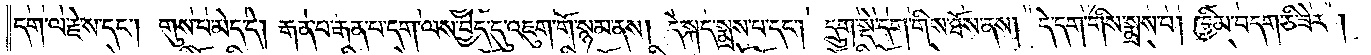དག་ལ་རྗེས་དང༌། གུས་པ་མེད་དེ། རྒན་པ་རྒན་པ་དག་ལས་བྱེད་དུ་འཇུག་གོ་སྙམ་ནས། དེ་སྐད་སྨྲས་པ་དང༌། དྲུག་སྡེ་དག་གིས་ཐོས་ནས། དེ་དག་གིས་སྨྲས་པ། ཁྱིམ་བདག་ཅི་ཟེར།
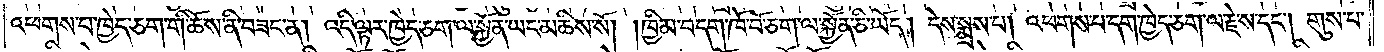འཕགས་པ་ཁྱེད་ཅག་གི་ཆོས་ནི་བཟང་ན། འདི་ལྟར་ཁྱེད་ཅག་ལ་སྐྱོན་ཡང་མཆིས་སོ། །ཁྱིམ་བདག་ཁོ་བོ་ཅག་ལ་སྐྱོན་ཅི་ཡོད། དེས་སྨྲས་པ། འཕགས་པ་དག་ཁྱེད་ཅག་ལ་རྗེ་ས་དང༌། གུས་པ་
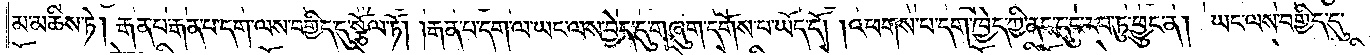མ་མཆིས་ཏེ། རྒན་པ་རྒན་པ་དག་ལས་བགྱིད་དུ་སྩོལ་ཏོ། །རྒན་པ་དག་ལ་ཡང་ལས་བྱེད་དུ་གཞུག་དགོས་པ་ཡོད་དོ། །འཕགས་པ་དག་ཁྱེད་ཀྱི་ནང་དུ་ང་རབ་ཏུ་ཕྱུང་ན། ཡང་ལས་བགྱིད་དུ་
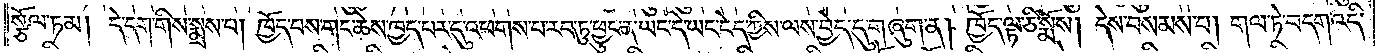སྩོལ་ཏམ། དེ་དག་གིས་སྨྲས་པ། ཁྱོད་བས་གང་ཆེས་ཁྱད་པར་དུ་འཕགས་པ་རབ་ཏུ་ཕྱུང་ན་ཡང་དེ་ཡང་ངེད་ཀྱིས་ལས་བྱེད་དུ་གཞུག་ན། ཁྱོད་ལྟ་ཅི་སྨོས། དེས་བསམས་པ། གལ་ཏེ་བདག་འདི་
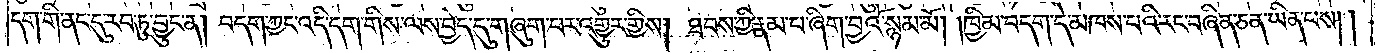དག་གི་ནང་དུ་རབ་ཏུ་བྱུང་ན། བདག་ཀྱང་འདི་དག་གིས་ལས་བྱེད་དུ་གཞུག་པར་འགྱུར་གྱིས། ཐབས་ཀྱི་རྣམ་པ་ཞིག་བྱའོ་སྙམ་མོ། །ཁྱིམ་བདག་དེ་མཁས་པའི་རང་བཞིན་ཅན་ཡིན་པས། །
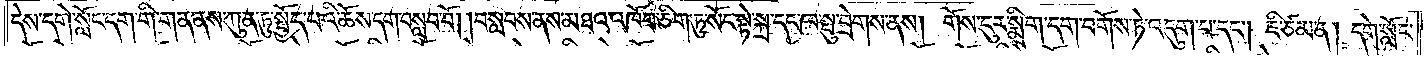དེས་དགེ་སློང་དག་གི་གན་ནས་ཀུན་ཏུ་སྤྱོད་པའི་ཆོས་དག་བསླབ་བོ། །བསླབས་ནས་མཐའ་འཁོབ་ཅིག་ཏུ་སོང་སྟེ་སྐྲ་དང་ཁ་སྤུ་བྲེགས་ནས། གོས་ངུར་སྨྲིག་དག་བགོས་ཏེ་འདུག་པ་དང༌། ཇི་ཙམ་ན། དགེ་སློང་
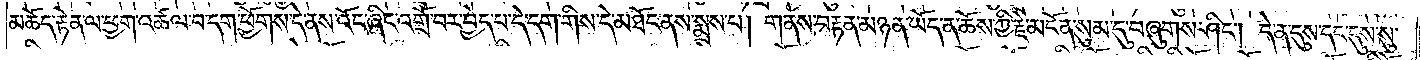མཆོད་རྟེན་ལ་ཕྱག་འཚལ་བ་དག་ཕྱོགས་དེ་ནས་འོང་ཞིང་འགྲོ་བར་བྱེད་པ་དེ་དག་གིས་དེ་མཐོང་ནས་སྨྲས་པ། གནས་བརྟན་མཉན་ཡོད་ན་ཆོས་ཀྱི་རྗེ་མངོན་སུམ་དུ་བཞུགས་ཤིང༌། དེ་ན་དུས་དང་དུས་སུ་
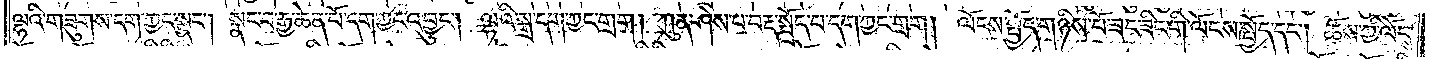ལྷའི་གཟུགས་དག་ཀྱང་སྣང༌། སྣང་བ་རྒྱ་ཆེན་པོ་དག་ཀྱང་འབྱུང༌། ལྷའི་སྒྲ་དག་ཀྱང་གྲག། ཀུན་ཤེས་པ་བརྡ་སྤྲོད་པ་དག་ཀྱང་གྲག། ལོངས་སྤྱོད་གཉིས་པོ་ཟང་ཟིང་གི་ལོངས་སྤྱོད་དང༌། ཆོས་ཀྱི་ལོངས་
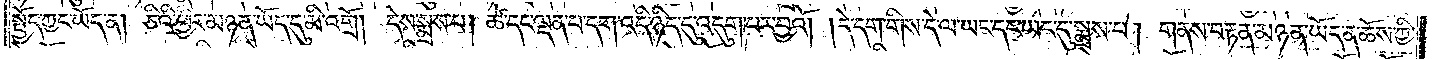སྤྱོད་ཀྱང་ཡོད་ན། ཅིའི་ཕྱིར་མཉན་ཡོད་དུ་མི་འགྲོ། དེས་སྨྲས་པ། ཚེ་དང་ལྡན་པ་དག་འདི་ཉིད་དུ་འདུག་པར་བྱའོ། །དེ་དག་གིས་དེ་ལ་ཡང་དང་ཡང་དུ་སྨྲས་པ། གནས་བརྟན་མཉན་ཡོད་ན་ཆོས་ཀྱི་
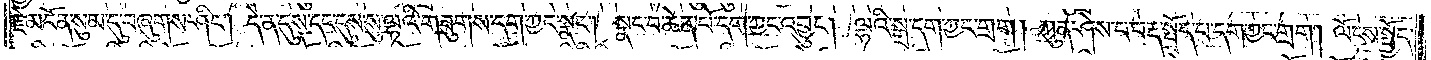རྗེ་མངོན་སུམ་དུ་བཞུགས་ཤིང༌། དེ་ན་དུས་དང་དུས་སུ་ལྷའི་གཟུགས་དག་ཀྱང་སྣང༌། སྣང་བ་ཆེན་པོ་དག་ཀྱང་འབྱུང༌། ལྷའི་སྒྲ་དག་ཀྱང་གྲག། ཀུན་ཤེས་པ་བརྡ་སྤྲོད་པ་དག་ཀྱང་གྲག། ལོངས་སྤྱོད་
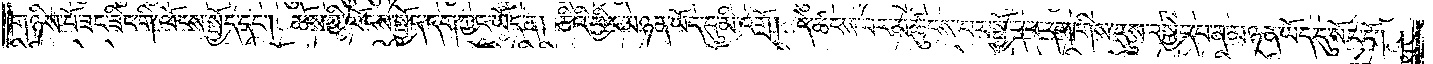གཉིས་པོ་ཟང་ཟིང་གི་ལོངས་སྤྱོད་དང༌། ཆོས་ཀྱི་ལོངས་སྤྱོད་དག་ཀྱང་ཡོད་ན། ཅིའི་ཕྱིར་མཉན་ཡོད་དུ་མི་འགྲོ། དེ་ཚངས་པར་མཚུངས་པར་སྤྱོད་པ་དག་གིས་དུས་བསྐྱེད་པ་ན་མཉན་ཡོད་དུ་སོང་ངོ༌། །
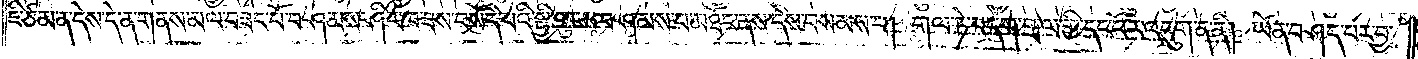ཇི་ཙམ་ན་དེས་དེ་ན་གནས་མལ་བཟང་པོ་བཤམས་ཤིང་ཁ་ཟས་བསོད་པའི་སྤྱི་བུངས་བཤམས་པ་མཐོང་ནས་དེས་བསམས་པ། གལ་ཏེ་བདག་གྲལ་གྱི་དང་པོར་འདུག་ན་ནི༑ ཡོན་བཤད་པར་བྱ་
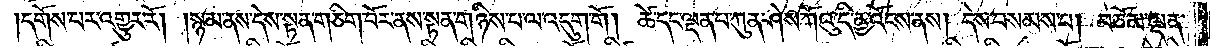དགོས་པར་འགྱུར་རོ། །སྙམ་ནས་དེས་སྟན་གཅིག་བོར་ནས་སྟན་གཉིས་པ་ལ་འདུག་གོ། ཚེ་དང་ལྡན་པ་ཀུན་ཤེས་ཀོའུ་དི་ནྱ་འོངས་ནས། དེས་བསམས་པ། བཅོམ་ལྡན་
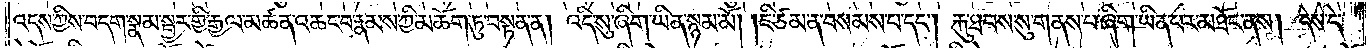འདས་ཀྱིས་བདག་སྣམ་སྦྱར་གྱི་རྒྱལ་མཚན་འཆང་བ་རྣམས་ཀྱི་མཆོག་ཏུ་བསྟན་ན། འདི་སུ་ཞིག་ཡིན་སྙམ་མོ། །ཇི་ཙམ་ན་བསམས་པ་དང༌། རྐུ་ཐབས་སུ་གནས་པ་ཞིག་ཡིན་པར་མཐོང་ནས། དེས་དེ་
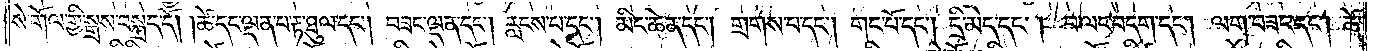སེ་གོལ་གྱི་སྒྲས་བསྐྲད་དོ། །ཚེ་དང་ལྡན་པ་རྟ་ཐུལ་དང༌། བཟང་ལྡན་དང༌། རླངས་པ་དང༌། མིང་ཆེན་དང༌། གྲགས་པ་དང༌། གང་པོ་དང༌། དྲི་མེད་དང༌། བ་ལང་བདག་དང༌། ལག་བཟང་དང༌། ཚེ་
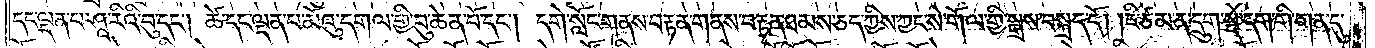དང་ལྡན་པ་ཤཱ་རིའི་བུ་དང༌། ཚེ་དང་ལྡན་པ་མོའུ་དགལ་གྱི་བུ་ཆེན་པོ་དང༌། དགེ་སློང་གནས་བརྟན་གནས་བརྟན་ཐམས་ཅད་ཀྱིས་ཀྱང་སེ་གོལ་གྱི་སྒྲས་བསྐྲད་དོ། །ཇི་ཙམ་ན་དྲུག་སྡེ་དག་གི་གན་དུ་
